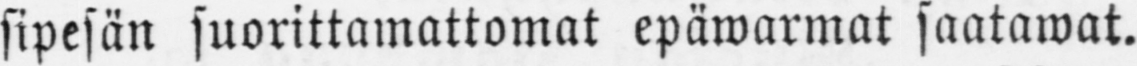sipesän suorittamattomat epäwarmat saatawat.
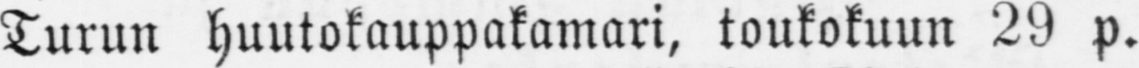Turun huutokauppakamari, toukokuun 29 p.
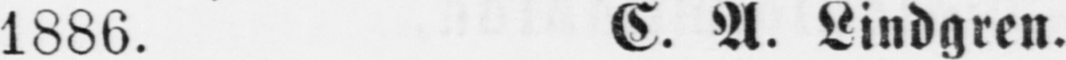1886. C. A. Lindgren.
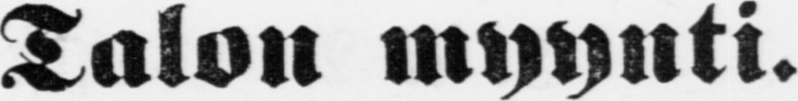Talon myynti.
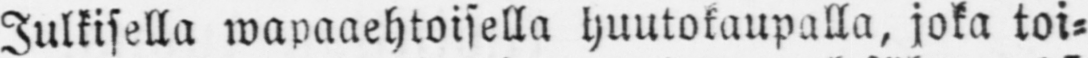Julkisella wapaaehtoisella huutokaupalla, joka toi-
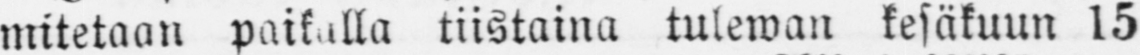mitetaan paikalla tiistaina tulewan kesäkuun 15
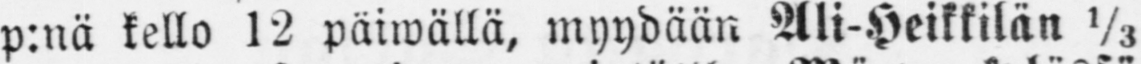p:nä kello 12 päiwällä, myydään Ali-Heikkilän ⅓
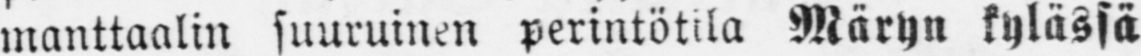manttaalin suuruinen perintötila Märyn kylässä
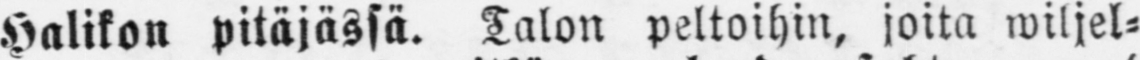Halikon pitäjässä. Talon peltoihin, joita wiljel-
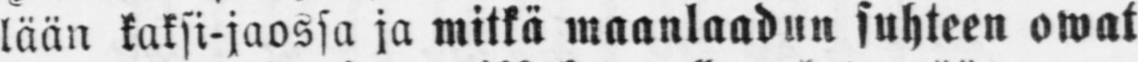lään kaksi-jaossa ja mitkä maanlaadun suhteen owat
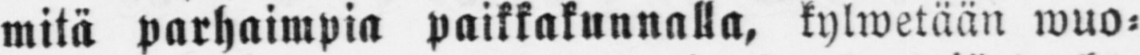mitä parhaimpia paikkakunnalla, kylwetään wuo-
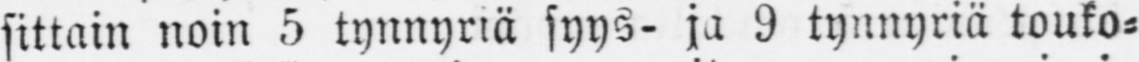sittain noin 5 tynnyriä syys- ja 9 tynnyriä touko-
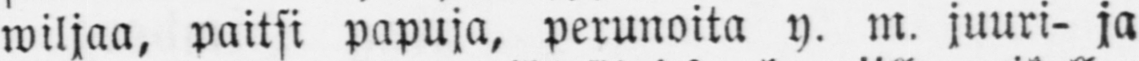wiljaa, paitsi papuja, perunoita y. m. juuri- ja
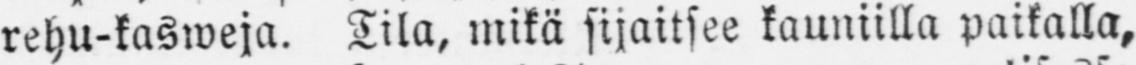rehu-kasweja. Tila, mikä sijaitsee kauniilla paikalla,
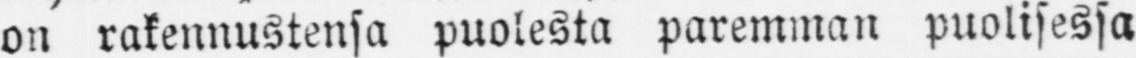on rakennustensa puolesta paremman puolisessa
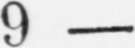9
